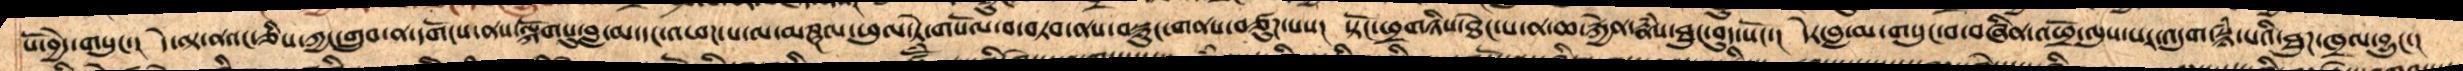པོ་བྱེད་གསུང་།  དེ་ལྟ་ནའང་ཅིས་ཀྱང་གྲུབ་ན་དགོངས་ནས་ལྐོགསུ་བླ་མ་དང་འཕཌ་པ་ལ་མཎྜལ་ཕུལ་ཏེ་གསོལ་བ་བཏབ་ནས་བསྙུང་གནས་བཙུཌ་པས།  སྟོང་ཕྲགཉིས་ཐེང་པ་ན་ཆ་རྐྱེན་རྣཾས་ཐུང་བུད་སོང་།  དེར་བླ་མ་གསུང་བ་བཞིན་འཕྲོ་ལུས་པར་འདུག་སྙཾ་པའི་ཐུཌ་ཁྲལ་བྱུང་།
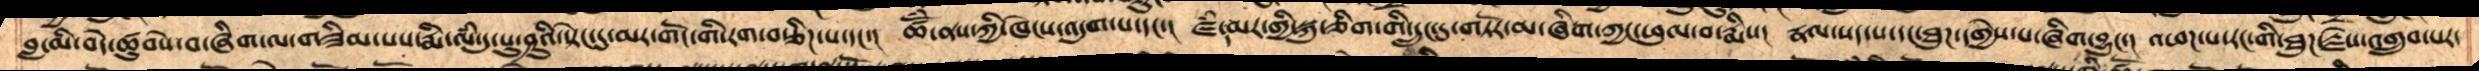བླ་མི་བདེ་ཚུབསེ་བ་ཞིག་ལ་གཟིམ་པས་རྨི་ལཾ་དུ་པུ་ཤུའི་སྟེང་དུ་མར་གོང་གི་རག་བརྩིཌ་པ་དང་།  ཚོཾ་ནས་ཀྱི་ཁེངས་འདུག་པ་དང་།  ཛཾ་དམར་གྱི་སྐུ་ཅིག་གི་དྲུང་དུ་གཏོར་མ་ཞིག་ཀྱང་ཕུལ་བ་རྨིས།  རྣལ་སད་པ་དང་ཐུཌ་དགྱེས་པ་ཞིག་བྱུང་།  འཕཌ་པ་རང་གི་ཐུཌ་རྗེས་འགྲུབ་པར་
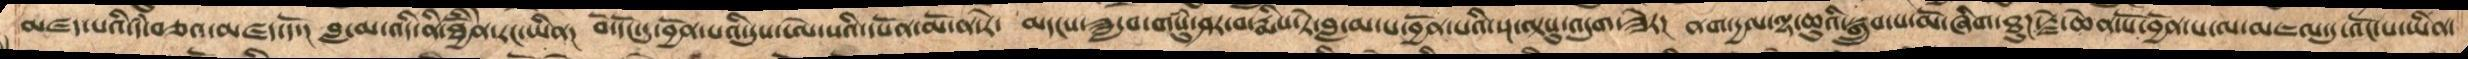མཛད་པའི་དཾ་བཅའ་མཛད་དོ་།  བླ་མ་འདི་ནི་ཐྱོེནི་རང་ཡིན།  བོ་དོང་དུ་བྱོན་པའི་དུས་ཨེ་པའི་དཔོན་མོ་ན་རེ་  མདངས་ཟླ་བ་གསུཾ་ཤར་བ་རྨིས་ཏེ་བླ་མ་པ་བྱོན་པའི་སྔ་ལྟསུ་འདུག་ཟེར།  ནག་དྱལ་ལྷ་ཆུའི་སྒྲུབ་པ་མོ་ཞིག་ཐུཌ་རྗེ་ཆེན་པོ་བྱོན་པ་ལ་མཇལ་དུ་འོང་པ་ཡིན་
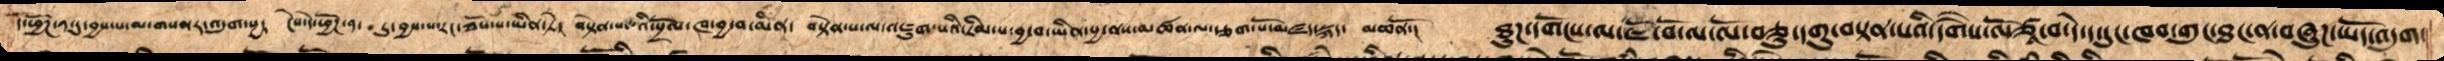དེ་ཕྱོཌ་ན་དུ་བྱས་པ་མ་གསནར་འདུག་སྱ།  ངེས་དེ་ཕྱོཌ་ན་དུ་བྱས་པ་རང་ཐོས་པ་ཡིན་ཏེ།   བསྟེན་པའི་སྲོལ་ཁ་བྱ་བ་མིན་  བསྟེན་པ་ལ་འཇུག་པའི་རིམ་པ་བྱ་བ་ཡིན་སྱ་ནས་མཚན་ལ་རྩག་པོ་མཛད་སྐད་  མཆནོ་།  ཐུཌ་དགོངས་ལ་ཇོ་བོ་ལ་ལོ་བཅུ་དགུ་བསྟན་པའི་དགཻས་ལོཙཱ་བ་དེ་ད་དུང་ཁབ་གུང་ཐང་ན་བཞུཌ་ཡོད་འདུག་
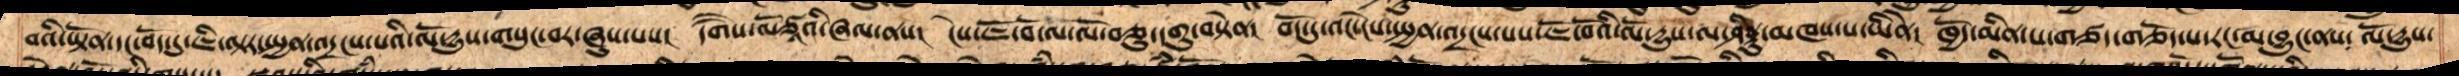བའི་ཡྟོན་དང་བོད་དུ་ཇི་ལྟར་སྤྱན་འདྲངས་པའི་ལོ་དྱུས་གསུང་བར་ཞུས་པས།  དགཻས་ལོཙཱའི་ཞལ་ནས།  ངས་ཇོ་བོ་ལ་ལོ་བཅུ་དགུ་བསྟེན།  བོད་དུ་འང་ངེས་སྤྱན་འདྲངས་པས་ཇོ་བོའི་ལོ་དྱུས་ལ་ཤིནྟུ་མཁས་པ་ཡིནེ།  ཁྱོད་མིན་པ་གཙད་གཅོད་པ་རང་མ་བྱུང་ནས་  ལོ་དྱུས་
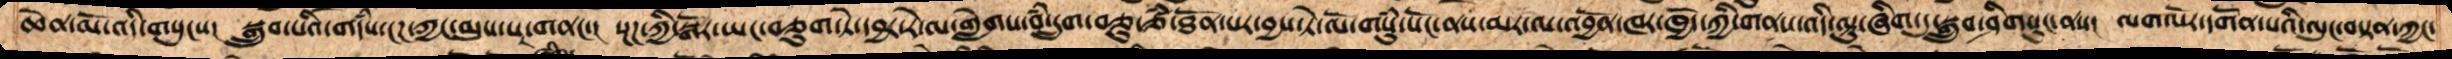ཆེན་མོ་འདི་གསུངས།  སྒྲུབ་པའིགདཾས་ངཌ་ཀྱང་མུས་པར་གནང་།  སྔཌ་ཀྱི་སྒོར་ཡང་བཅུག་ཏེ་དབྱར་རེ་ལ་གླེགས་བཾ་དྲུག་ཅུ་ཙཾ་ཐོན་པར་བྱས་ཏེ་ལོ་གསུཾ་སོང་ནས་མར་ལ་འབྱོན་ཁར་ཁྱོད་ཀྱི་གནས་འདི་ལྟུ་ཞིག་དུ་སྒྲུབ་ཤིགསུང་ནས།  ལག་སོར་དགོན་པའི་ལུང་བསྟན་ཀྱང་
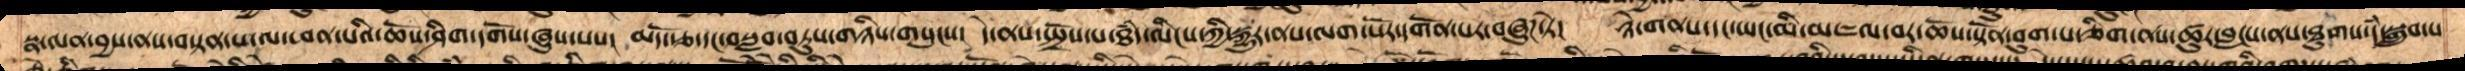སྣ་ལན་བྱས་ནས་བསྟན་པ་ལ་ཕན་པའི་ཆོས་ཤིག་དགོས་ཞུས་པས།  མདོ་རྩ་དང་བསླབ་བཏུས་གཉིས་གསུངས།  དེ་ནས་སྤྲོས་པ་ཐཾད་ལིངས་ཀྱིས་སྐྱུར་ནས་ལག་སོར་དགོན་པར་བཞུཌ་ཏེ།  ཉེ་གནས་དང་ཡང་མི་མཇལ་བར་ཆོས་སྟོན་བུག་པ་ཅིག་ནས་ཚུར་བླངས་ནས་ཐུགས་དཾ་སྒྲུབ་པ་
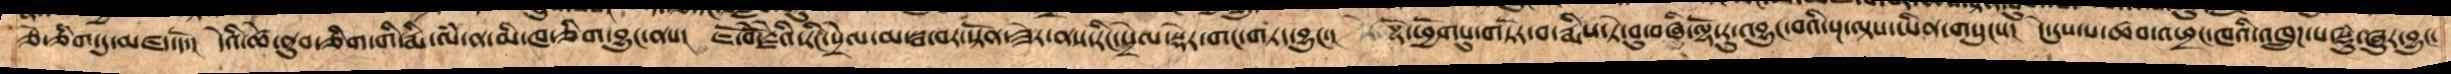ཅེ་ཅིག་དུ་མཛད་དོ་།  དེའི་ཚེ་ནུབ་ཅིག་གི་རྨི་ལཾ་ན་མི་ཁ་ཅིག་བྱུང་ནས།  ཇོ་བོརྗེའི་རིང་སྲེལ་མ་སྦ་བར་སསྟོན་ཟེར་ནས་རིང་སྲེལ་སྡེར་གང་གཏད་བྱུང་།   ལྷོ་ཕྱོགསུ་གཏོར་བ་རྨིས་ཏེ་བུ་བཞི་ལྷོ་རུ་འབྱུང་བའི་སྔ་ལྟས་ཡིན་གསུངས།  དེ་དུས་པ་ཚབ་འཕྲང་ཁའི་འཁྲུཌ་པ་སྡུཾ་ཞུར་བྱུང་
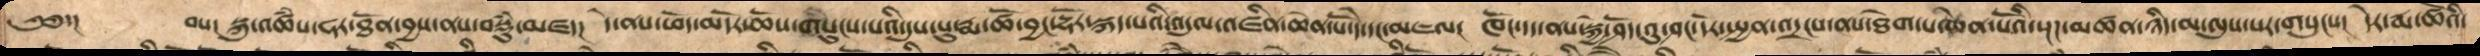༄༅་།      བས།  སྐུ་འཚཾས་ཧར་ཐོན་བྱས་ནས་བསྡུཾ་མཛད།  དེ་ནས་ཕོད་མདོར་ཆོས་གསུངས་པའི་དུསུ་རྨ་ཚོ་བྱང་དྷོར་སྐད་པའི་འདུལ་འཛིན་ཆེན་པོ་དེ་དང་མཇལ།  ཁོང་དད་ནས་སྐྱེ་ཤོད་འུ་ཤང་དོར་སྤྱན་འདྲངས་ནས་ཐེག་པ་ཆེན་པོའི་སྔཌ་མཚན་ཉིད་མ་ལུས་པར་གསུངས།  དེར་རྨ་ཚོའི་
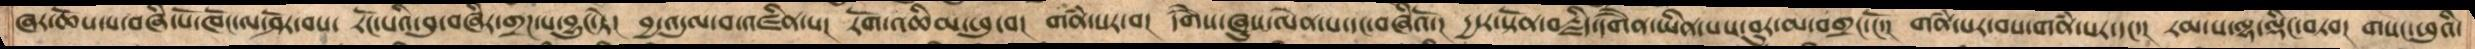ཞར་ཆོས་པ་བཞི་པོ་ཁོང་ལ་ཤོར་བས།  རོང་པའི་བུ་བཞིར་གྲཌ་པ་བྱུང་ཏེ།  བྱ་འདུལ་བ་འཛིན་པ།  རོག་འཆིམ་ཕུ་བ།  གནཾ་སར་བ།  དགཻས་ཞུས་ལེན་པ་དང་བཞིའོ་།  དྱ་ར་སྟོན་བརྗིད་དགཻན་ཡིན་པས་བུར་མ་བགྲང་ངོ་།  གནཾ་པར་བས་གནཾ་པར་དང་།  རམ་པ་ལྷ་ལྡིང་བཏབ།  གསང་ཕུའི་
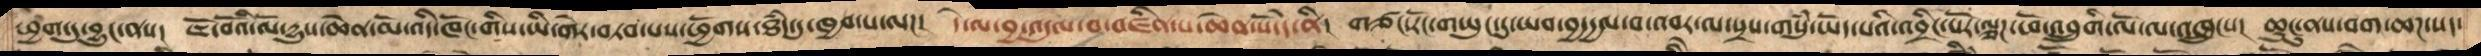ཕྱག་དུ་བྱུང་ནས།  ཇོ་བོའི་ལོ་དྱུས་ཆེན་མོ་འདི་ཁོང་གིས་ཡི་གེར་བཏབ་པས་ཕྱོགས་སཐཾད་དུ་ཁྱབ་པ་ལཌ།  དེ་ལ་བྱ་འདུལ་བ་འཛིན་པ་ཆེན་པོ་དེ་ནི།  གཙང་རོང་གཡུང་དུ་ཡབ་བྱ་དྱལ་བ་འབར་ལ་སྲས་གསུཾ་ཡོད་པའི་འབྲིང་པོར་ལྕཌ་ཕོ་འབྲུགི་ལོ་ལ་འཁྲུངས།  ཆུང་ངུ་ནས་བག་ཆཌ་སད་
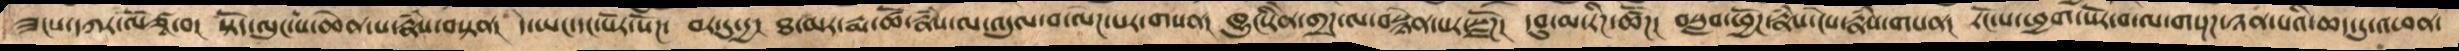ཟངས་དཀར་ལོ་ཙཱ་བ།  སྟོད་ལུང་པ་ཆེན་པ་རྣཾས་བསྟན།  དེ་ཡང་དང་པོར་སོཌ་  བར་དུ་དྱ།  ཐ་མར་རྨ་ཚོ་རྣཾས་ལ་འདུལ་བ་ལེཌ་པར་གསན།  ཁྱུང་རིེན་གྲཌ་ལ་བསྙེན་པར་སྫོཌ།  དབུ་མ་རིཌ་ཚོཌ།  བསླབ་ཕྱོཌ་རྣཾས་ངེས་རྣཾས་གསན།  རོང་པ་ཕྱག་སོར་བ་ལ་གསྔཌ་ཉན་པའི་ཆད་དུ་འཕན་
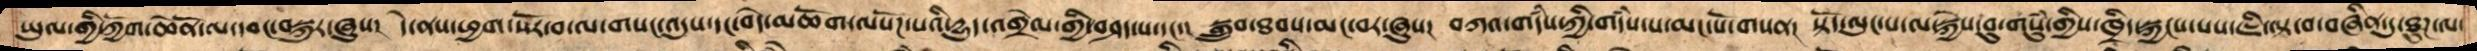ཡུལ་གྱི་ཀྱོག་ཆེནོ་ལ་དབང་བསྐུར་ཞུས།  དེ་ནས་ཕྱག་སོར་བ་ལ་གསང་འདུས་དང་བདེ་མཆོག་ལསོཌ་པའི་དྱུད་འགྲེལ་གྱི་བཤད་པ་དང།  སྒྲུབ་ཐབས་མང་བར་ཞུས།  བཀའ་གདཾས་ཀྱི་གདཾས་པ་མང་པོ་གསན།  སྟོད་ལུང་པ་ལ་སྐྱེས་བུ་གསུཾ་གྱིས་ཁྲིད་སྐྱངས་པས་ཇི་ལྟ་བ་བཞིན་དུ་ཐུཌ་ལ་
